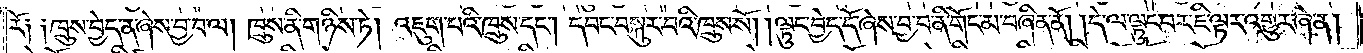རོ༑ ༑ཁྲུས་བྱེད་ན་ཞེས་བྱ་བ་ལ། ཁྲུས་ནི་གཉིས་ཏེ། འཇུག་པའི་ཁྲུས་དང༌། དབང་བསྐུར་བའི་ཁྲུས་སོ། །ལྟུང་བྱེད་དོ་ཞེས་བྱ་བ་ནི་གོང་མ་བཞིན་ནོ། །དེ་ལྟ་ལྟུང་བར་ཇི་ལྟར་འགྱུར་ཞེ་ན།
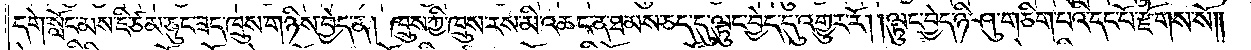དགེ་སློང་མས་ཇི་ཙམ་ཅུང་ཟད་ཁྲུས་གཉིས་བྱེད་ན། ཁྲུས་ཀྱི་ཁྲུས་རས་མི་འཆང་ན་ཐམས་ཅད་དུ་ལྟུང་བྱེད་དུ་འགྱུར་རོ། །ལྟུང་བྱེད་ཉི་ཤུ་གཅིག་པའི་དང་པོ་རྫོགས་སོ༎
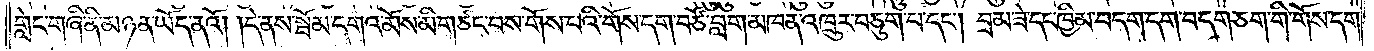གླེང་གཞི་ནི་མཉན་ཡོད་ནའོ། །དེ་ནས་སྦོམ་དགའ་མོས་མི་གཙང་བས་གོས་པའི་གོས་དག་བཙོ་བླག་མཁན་འཁྲུར་བཅུག་པ་དང༌། བྲམ་ཟེ་དང་ཁྱིམ་བདག་དག་བདག་ཅག་གི་གོས་དག་
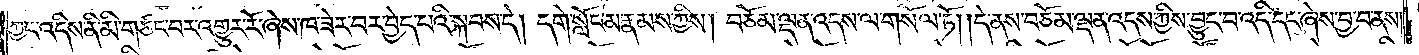ཀྱང་འདིས་ནི་མི་གཙང་བར་འགྱུར་རོ་ཞེས་ཁ་ཟེར་བར་བྱེད་པའི་སྐབས་དེ། དགེ་སློང་མ་རྣམས་ཀྱིས། བཅོམ་ལྡན་འདས་ལ་གསོལ་ཏོ། །དེ་ནས་བཅོམ་ལྡན་འདས་ཀྱིས་བྱུང་བ་འདི་དང་ཞེས་བྱ་བ་ནས།
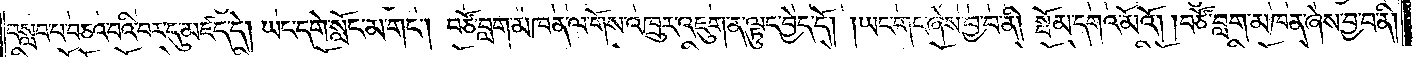བསླབ་པ་བཅའ་བའི་བར་དུ་མཛད་དེ། ཡང་དགེ་སློང་མ་གང༌། བཙོ་བླག་མཁན་ལ་གོས་འཁྲུར་འཇུག་ན་ལྟུང་བྱེད་དོ། །ཡང་གང་ཞེས་བྱ་བ་ནི། སྦོམ་དགའ་མོའོ། །གཙོ་བླག་མཁན་ཞེས་བྱ་བ་ནི།
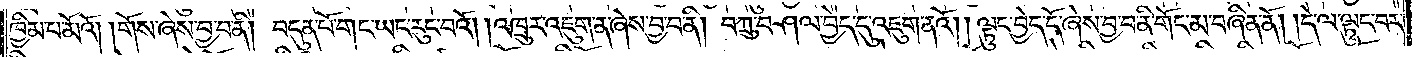ཁྱིམ་པ་མོའོ། །གོས་ཞེས་བྱ་བ་ནི། བདུན་པོ་གང་ཡང་རུང་བའོ། །འཁྲུར་འཇུག་ན་ཞེས་བྱ་བ་ནི། བཀྲུ་བཤལ་བྱེད་དུ་འཇུག་ནའོ། །ལྟུང་བྱེད་དོ་ཞེས་བྱ་བ་ནི་གོང་མ་བཞིན་ནོ། །དེ་ལ་ལྟུང་བར་
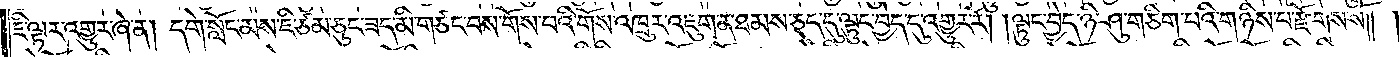ཇི་ལྟར་འགྱུར་ཞེ་ན། དགེ་སློང་མས་ཇི་ཙམ་ཅུང་ཟད་མི་གཙང་བས་གོས་པའི་གོས་འཁྲུར་འཇུག་ན་ཐམས་ཅད་དུ་ལྟུང་བྱེད་དུ་འགྱུར་རོ། །ལྟུང་བྱེད་ཉི་ཤུ་གཅིག་པའི་གཉིས་པ་རྫོགས་སོ༎
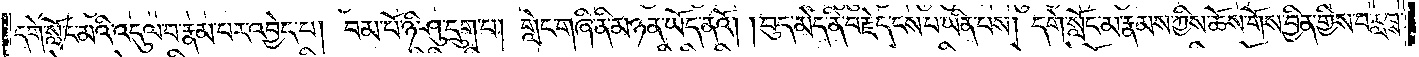དགེ་སློང་མའི་འདུལ་བ་རྣམ་པར་འབྱེད་པ། བམ་པོ་ཉི་ཤུ་དྲུག་པ། གླེང་གཞི་ནི་མཉན་ཡོད་ནའོ། །བུད་མེད་ནི་བརྗེད་ངས་པ་ཡིན་པས། དགེ་སློང་མ་རྣམས་ཀྱིས་ཆོས་གོས་བྱིན་གྱིས་བརླབས་
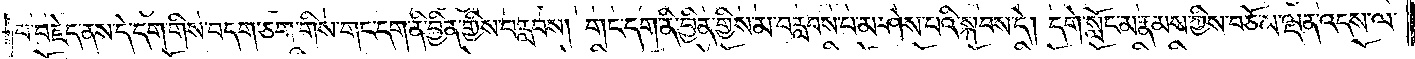པ་བརྗེད་ནས་དེ་དག་གིས་བདག་ཅག་གིས་གང་དག་ནི་བྱིན་གྱིས་བརླབས། གང་དག་ནི་བྱིན་གྱིས་མ་བརླབས་པ་མ་ཤེས་པའི་སྐབས་དེ། དགེ་སློང་མ་རྣམས་ཀྱིས་བཅོམ་ལྡན་འདས་ལ་
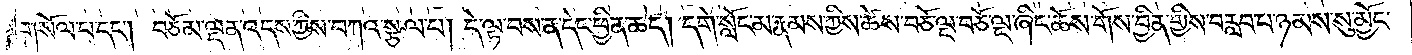གསོལ་པ་དང༌། བཅོམ་ལྡན་འདས་ཀྱིས་བཀའ་སྩལ་པ། དེ་ལྟ་བས་ན་དེང་ཕྱིན་ཆད། དགེ་སློང་མ་རྣམས་ཀྱིས་ཚེས་བཅོ་ལྔ་བཅོ་ལྔ་ཞིང་ཆོས་གོས་བྱིན་གྱིས་བརླབ་པ་ཉམས་སུ་མྱོང་
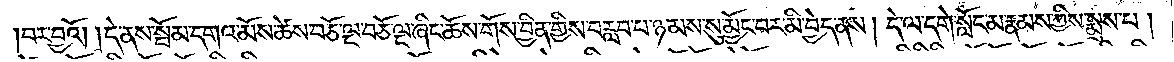།བར་བྱའོ། །དེ་ནས་སྦོམ་དགའ་མོས་ཚེས་བཅོ་ལྔ་བཅོ་ལྔ་ཞིང་ཆོས་གོས་བྱིན་གྱིས་བརླབ་པ་ཉམས་སུ་མྱོང་བར་མི་བྱེད་ནས། དེ་ལ་དགེ་སློང་མ་རྣམས་ཀྱིས་སྨྲས་པ།
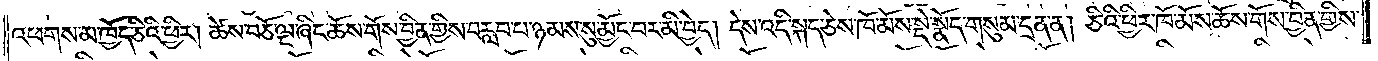འཕགས་མ་ཁྱོད་ཅིའི་ཕྱིར། ཚེས་བཅོ་ལྔ་ཞིང་ཆོས་གོས་བྱིན་གྱིས་བརླབ་པ་ཉམས་སུ་མྱོང་བར་མི་བྱེད། དེས་འདི་སྐད་ཅེས་ཁོ་མོས་སྡེ་སྣོད་གསུམ་དྲན་ན། ཅིའི་ཕྱིར་ཁོ་མོས་ཆོས་གོས་བྱིན་གྱིས་
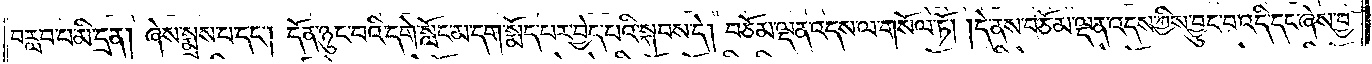བརླབ་པ་མི་དྲན། ཞེས་སྨྲས་པ་དང༌། དོན་ཉུང་བའི་དགེ་སློང་མ་དག་སྨོད་པར་བྱེད་པའི་སྐབས་དེ། བཅོམ་ལྡན་འདས་ལ་གསོལ་ཏོ། །དེ་ནས་བཅོམ་ལྡན་འདས་ཀྱིས་བྱུང་བ་འདི་དང་ཞེས་བྱ་
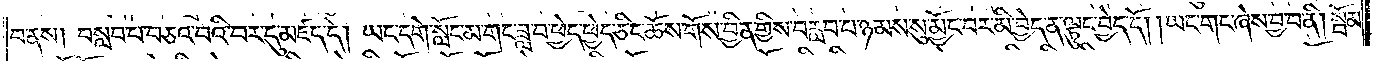བ་ནས། བསླབ་པ་བཅའ་བའི་བར་དུ་མཛད་དེ། ཡང་དགེ་སློང་མ་གང་ཟླ་བ་ཕྱེད་ཕྱེད་ཅིང་ཆོས་གོས་བྱིན་གྱིས་བརླབ་པ་ཉམས་སུ་མྱོང་བར་མི་བྱེད་ན་ལྟུང་བྱེད་དོ། །ཡང་གང་ཞེས་བྱ་བ་ནི། སྦོམ་
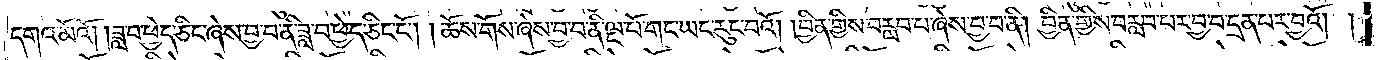དགའ་མོའོ། །ཟླ་བ་ཕྱེད་ཅིང་ཞེས་བྱ་བ་ནི་ཟླ་བ་ཕྱེད་ཅིང་ངོ༌། །ཆོས་གོས་ཞེས་བྱ་བ་ནི་ལྔ་པོ་གང་ཡང་རུང་བའོ། །བྱིན་གྱིས་བརླབ་པ་ཞེས་བྱ་བ་ནི། བྱིན་གྱིས་བརླབ་པར་བྱ་བ་དྲན་པར་བྱའོ། །
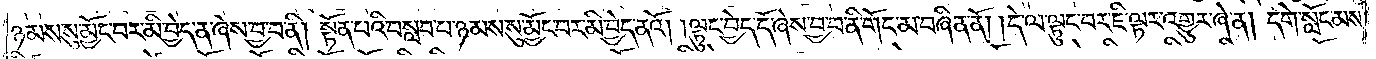ཉམས་སུ་མྱོང་བར་མི་བྱེད་ན་ཞེས་བྱ་བ་ནི། སྟོན་པའི་བསླབ་པ་ཉམས་སུ་མྱོང་བར་མི་བྱེད་ནའོ། །ལྟུང་བྱེད་དོ་ཞེས་བྱ་བ་ནི་གོང་མ་བཞིན་ནོ། །དེ་ལ་ལྟུང་བར་ཇི་ལྟར་འགྱུར་ཞེ་ན། དགེ་སློང་མས་
